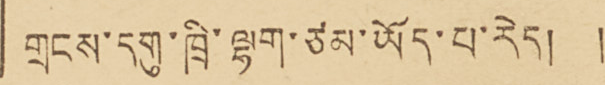གྲངས་དགུ་ཁྲི་ལྷག་ཙམ་ཡོད་པ་རེད། །
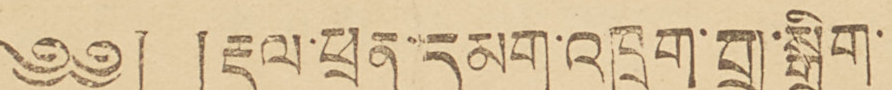༄༅། །རྡུལ་ཕྲན་དམག་འཁྲུག་གྲྭ་སྒྲིག་
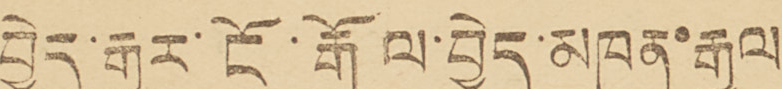བྱེད་རྒྱུར་ངོ་རྒོལ་བྱེད་མཁན་རྒྱལ་
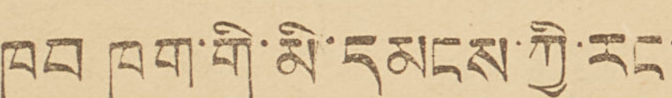ཁབ ཁག་གི་མི་དམངས་ཀྱི་རང་
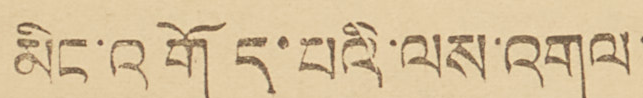མིང་འགོད་པའི་ལས་འགུལ་
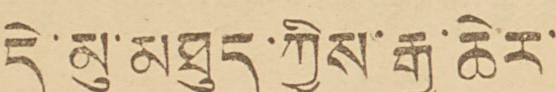དེ་མུ་མཐུད་ཀྱིས་རྒྱ་ཆེར་
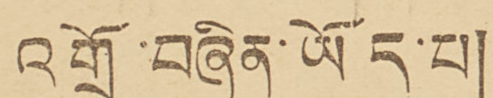འགྲོ་བཞིན་ཡོད་པ།
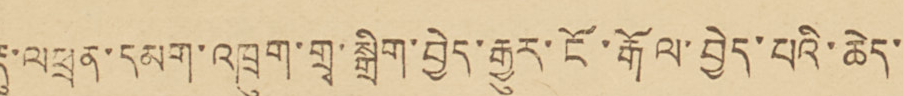རྡུ་ལཕྲན་དམག་འཁྲུག་གྲྭ་སྒྲིག་བྱེད་རྒྱུར་ངོ་རྒོལ་བྱེད་པའི་ཆེད་
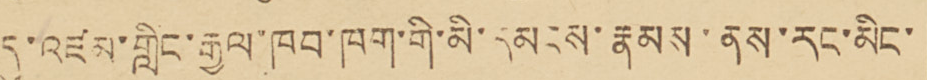དུ་འཛམ་གླིང་རྒྱལ་ཁབ་ཁག་གི་མི་དམངས་རྣམས་ནས་རང་མིང་
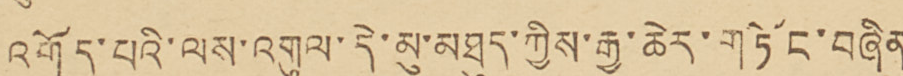འགོད་པའི་ལས་འགུལ་དེ་མུ་མཐུད་ཀྱིས་རྒྱ་ཆེར་གཏོང་བཞིན་
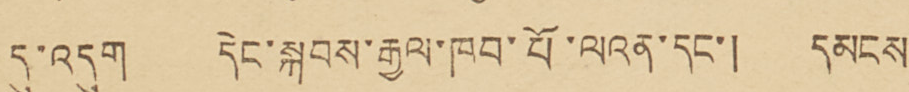དུ་འདུག དེང་སྐབས་རྒྱལ་ཁབ་པོ་ལའན་དང་། དམངས་
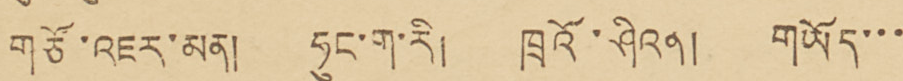གཙོ་འཇར་མན། ཧུང་ག་རི། ཁྲའོ་ཤིའན། གཡོད་་་་
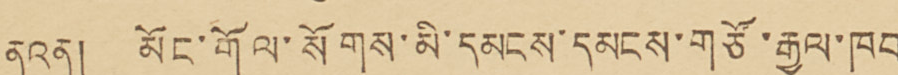ནའན། མོང་གོལ་སོགས་མི་དམངས་དམངས་གཙོ་རྒྱལ་ཁབ་
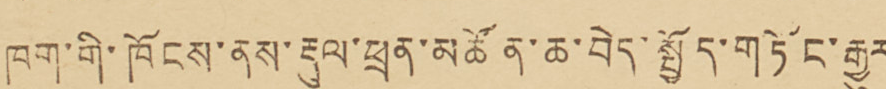ཁག་གི་ཁོངས་ནས་རྡུལ་ཕྲན་མཚོན་ཆ་བེད་སྤྱོད་གཏོང་རྒྱུར་
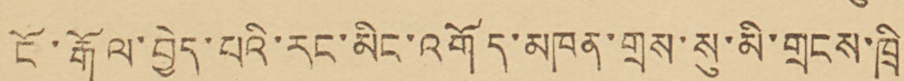ངོ་རྒོལ་བྱེད་པའི་རང་མིང་འགོད་མཁན་གྲས་སུ་མི་གྲངས་ཁྲི་
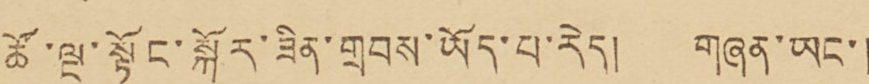ཚོ་ལྔ་སྟོང་སྐོར་ཟིན་གྲབས་ཡོད་པ་རེད། གཞན་ཡང་།
